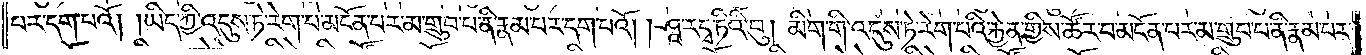པར་དག་པའོ། །ཡིད་ཀྱི་འདུས་ཏེ་རེག་པ་མངོན་པར་མ་གྲུབ་པ་ནི་རྣམ་པར་དག་པའོ། །ཤཱ་རདྭ་ཏིའི་བུ། མིག་གི་འདུས་ཏེ་རེག་པའི་རྐྱེན་གྱིས་ཚོར་བ་མངོན་པར་མ་གྲུབ་པ་ནི་རྣམ་པར་
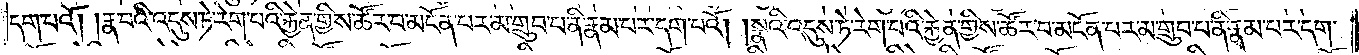དག་པའོ། །རྣ་བའི་འདུས་ཏེ་རེག་པའི་རྐྱེན་གྱིས་ཚོར་བ་མངོན་པར་མ་གྲུབ་པ་ནི་རྣམ་པར་དག་པའོ། །སྣའི་འདུས་ཏེ་རེག་པའི་རྐྱེན་གྱིས་ཚོར་བ་མངོན་པར་མ་གྲུབ་པ་ནི་རྣམ་པར་དག་
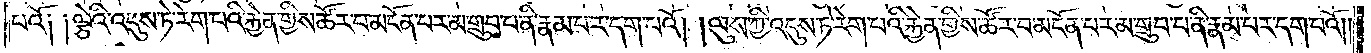པའོ༑ ༑ལྕེའི་འདུས་ཏེ་རེག་པའི་རྐྱེན་གྱིས་ཚོར་བ་མངོན་པར་མ་གྲུབ་པ་ནི་རྣམ་པར་དག་པའོ། །ལུས་ཀྱི་འདུས་ཏེ་རེག་པའི་རྐྱེན་གྱིས་ཚོར་བ་མངོན་པར་མ་གྲུབ་པ་ནི་རྣམ་པར་དག་པའོ། །
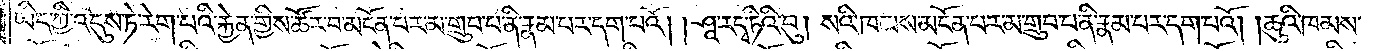ཡིད་ཀྱི་འདུས་ཏེ་རེག་པའི་རྐྱེན་གྱིས་ཚོར་བ་མངོན་པར་མ་གྲུབ་པ་ནི་རྣམ་པར་དག་པའོ། །ཤཱ་རདྭ་ཏིའི་བུ། སའི་ཁམས་མངོན་པར་མ་གྲུབ་པ་ནི་རྣམ་པར་དག་པའོ། །ཆུའི་ཁམས་
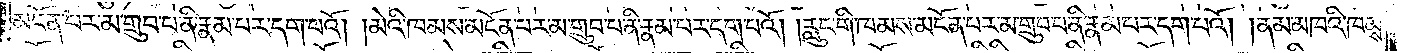མངོན་པར་མ་གྲུབ་པ་ནི་རྣམ་པར་དག་པའོ། །མེའི་ཁམས་མངོན་པར་མ་གྲུབ་པ་ནི་རྣམ་པར་དག་པའོ། །རླུང་གི་ཁམས་མངོན་པར་མ་གྲུབ་པ་ནི་རྣམ་པར་དག་པའོ། །ནམ་མཁའི་ཁམས་
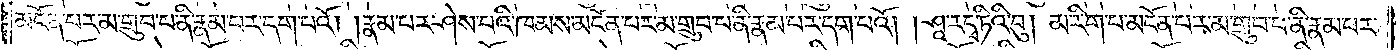མངོན་པར་མ་གྲུབ་པ་ནི་རྣམ་པར་དག་པའོ། །རྣམ་པར་ཤེས་པའི་ཁམས་མངོན་པར་མ་གྲུབ་པ་ནི་རྣམ་པར་དག་པའོ། །ཤཱ་ར་དྭ་ཏིའི་བུ། མ་རིག་པ་མངོན་པར་མ་གྲུབ་པ་ནི་རྣམ་པར་
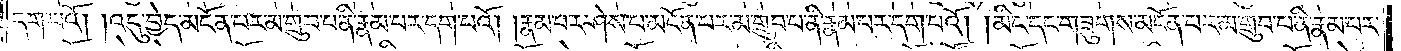དག་པའོ། །འདུ་བྱེད་མངོན་པར་མ་གྲུབ་པ་ནི་རྣམ་པར་དག་པའོ། །རྣམ་པར་ཤེས་པ་མངོན་པར་མ་གྲུབ་པ་ནི་རྣམ་པར་དག་པའོ། །མིང་དང་གཟུགས་མངོན་པར་མ་གྲུབ་པ་ནི་རྣམ་པར་
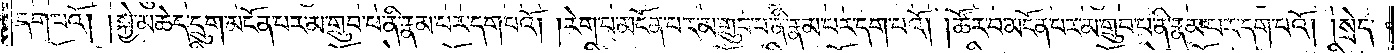དག་པའོ། །སྐྱེ་མཆེད་དྲུག་མངོན་པར་མ་གྲུབ་པ་ནི་རྣམ་པར་དག་པའོ། །རེག་པ་མངོན་པར་མ་གྲུབ་པ་ནི་རྣམ་པར་དག་པའོ། །ཚོར་བ་མངོན་པར་མ་གྲུབ་པ་ནི་རྣམ་པར་དག་པའོ། །སྲེད་
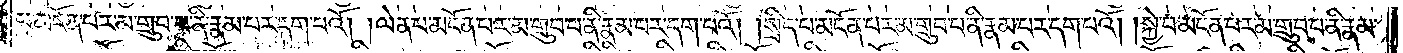པ་མངོན་པར་མ་གྲུབ་པ་ནི་རྣམ་པར་དག་པའོ། །ལེན་པ་མངོན་པར་མ་གྲུབ་པ་ནི་རྣམ་པར་དག་པའོ། །སྲིད་པ་མངོན་པར་མ་གྲུབ་པ་ནི་རྣམ་པར་དག་པའོ། །སྐྱེ་བ་མངོན་པར་མ་གྲུབ་པ་ནི་རྣམ་
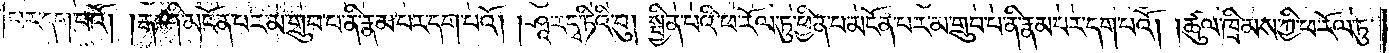པར་དག་པའོ། །རྒ་ཤི་མངོན་པར་མ་གྲུབ་པ་ནི་རྣམ་པར་དག་པའོ། །ཤཱ་ར་དྭ་ཏིའི་བུ། སྦྱིན་པའི་ཕ་རོལ་ཏུ་ཕྱིན་པ་མངོན་པར་མ་གྲུབ་པ་ནི་རྣམ་པར་དག་པའོ། །ཚུལ་ཁྲིམས་ཀྱི་ཕ་རོལ་ཏུ་
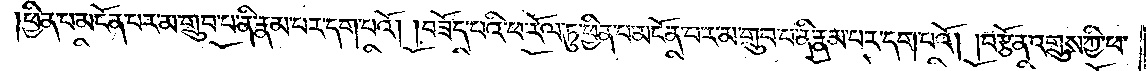ཕྱིན་པ་མངོན་པར་མ་གྲུབ་པ་ནི་རྣམ་པར་དག་པའོ། །བཟོད་པའི་ཕ་རོལ་ཏུ་ཕྱིན་པ་མངོན་པར་མ་གྲུབ་པ་ནི་རྣམ་པར་དག་པའོ། །བརྩོན་འགྲུས་ཀྱི་ཕ་
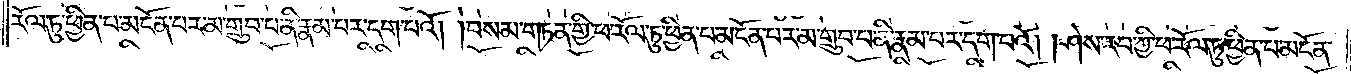རོལ་ཏུ་ཕྱིན་པ་མངོན་པར་མ་གྲུབ་པ་ནི་རྣམ་པར་དག་པའོ། །བསམ་གཏན་གྱི་ཕ་རོལ་ཏུ་ཕྱིན་པ་མངོན་པར་མ་གྲུབ་པ་ནི་རྣམ་པར་དག་པའོ། །ཤེས་རབ་ཀྱི་ཕ་རོལ་ཏུ་ཕྱིན་པ་མངོན་
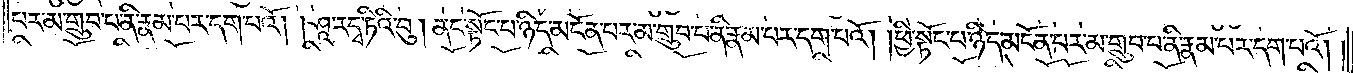པར་མ་གྲུབ་པ་ནི་རྣམ་པར་དག་པའོ། །ཤཱ་ར་དྭ་ཏིའི་བུ། ནང་སྟོང་པ་ཉིད་མངོན་པར་མ་གྲུབ་པ་ནི་རྣམ་པར་དག་པའོ། །ཕྱི་སྟོང་པ་ཉིད་མངོན་པར་མ་གྲུབ་པ་ནི་རྣམ་པར་དག་པའོ། །
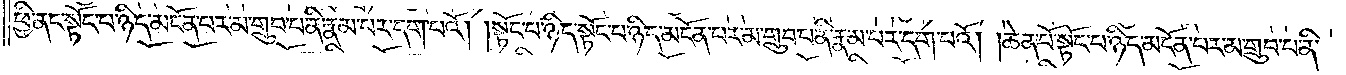ཕྱི་ནང་སྟོང་པ་ཉིད་མངོན་པར་མ་གྲུབ་པ་ནི་རྣམ་པར་དག་པའོ། །སྟོང་པ་ཉིད་སྟོང་པ་ཉིད་མངོན་པར་མ་གྲུབ་པ་ནི་རྣམ་པར་དག་པའོ། །ཆེན་པོ་སྟོང་པ་ཉིད་མངོན་པར་མ་གྲུབ་པ་ནི་
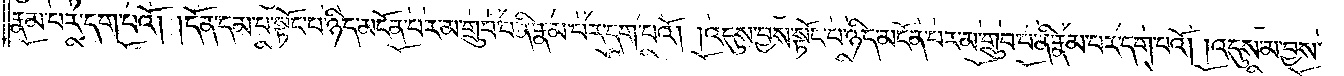རྣམ་པར་དག་པའོ། །དོན་དམ་པ་སྟོང་པ་ཉིད་མངོན་པར་མ་གྲུབ་པ་ནི་རྣམ་པར་དག་པའོ། །འདུས་བྱས་སྟོང་པ་ཉིད་མངོན་པར་མ་གྲུབ་པ་ནི་རྣམ་པར་དག་པའོ། །འདུས་མ་བྱས་
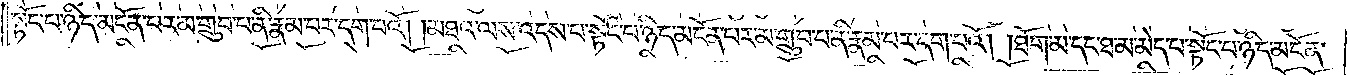སྟོང་པ་ཉིད་མངོན་པར་མ་གྲུབ་པ་ནི་རྣམ་པར་དག་པའོ། །མཐའ་ལས་འདས་པ་སྟོང་པ་ཉིད་མངོན་པར་མ་གྲུབ་པ་ནི་རྣམ་པར་དག་པའོ། །ཐོག་མ་དང་ཐ་མ་མེད་པ་སྟོང་པ་ཉིད་མངོན་
